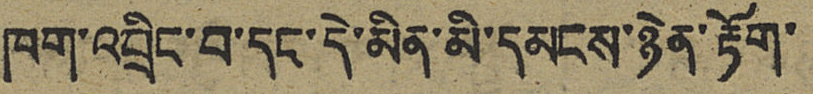ཁག་འབྲིང་བ་དང་དེ་མིན་མི་དམངས་ཉེན་རྟོག་
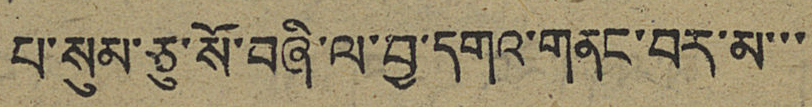པ་སུམ་ཅུ་སོ་བཞི་ལ་བྱ་དགའ་གནང་བར་མ་་་
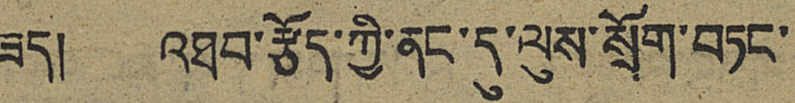ཟད། འཐབ་རྩོད་ཀྱི་ནང་དུ་ལུས་སྲོག་བཏང་
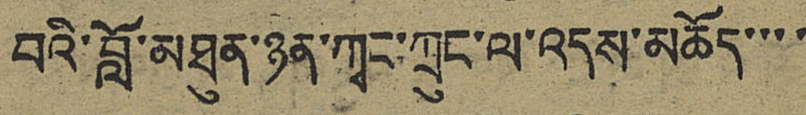བའི་བློ་མཐུན་ཉན་ཀྭང་ཀྲུང་ལ་འདས་མཆོད་་་་
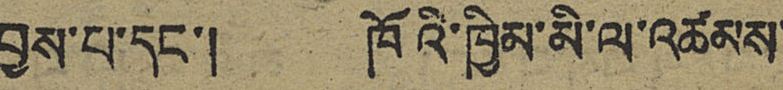བྱས་པ་དང་། ཁོའི་ཁྱིམ་མི་ལ་འཚམས་
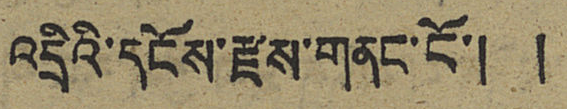འདྲིའི་དངོས་རྫས་གནང་ངོ་། །
